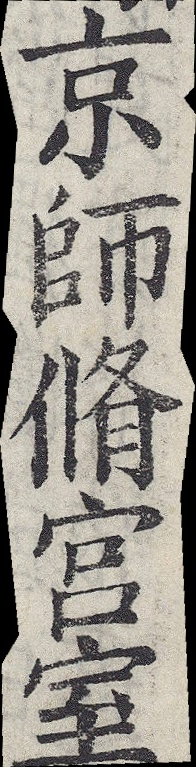京師脩宮室
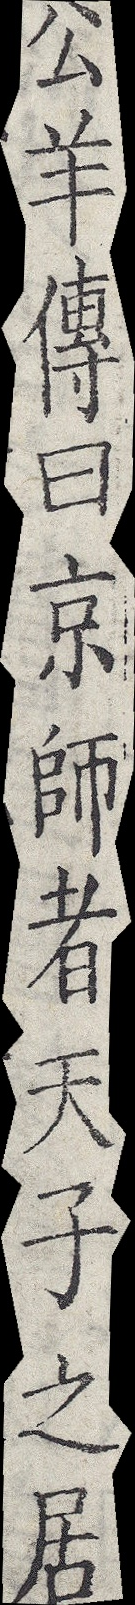公羊傳曰京師者天子之居
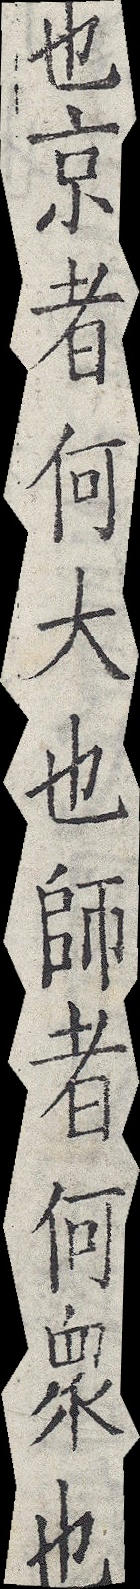也京者何大也師者何衆也
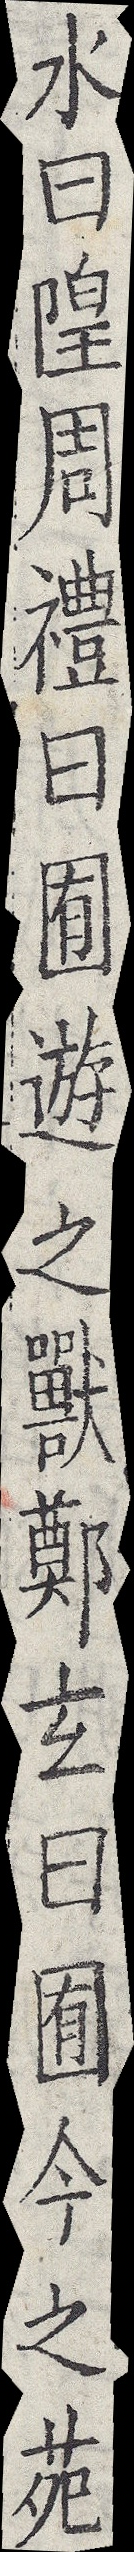水曰隍周禮曰囿遊之獸鄭玄曰囿今之苑
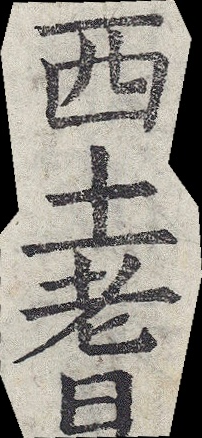西土耆
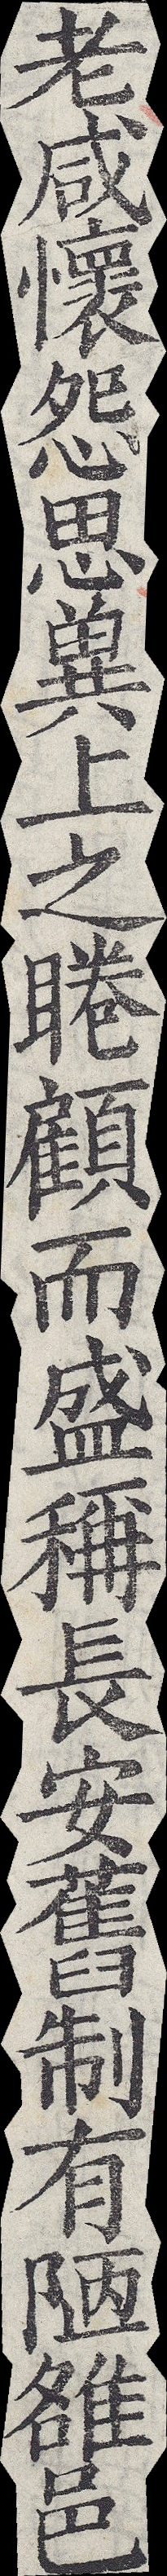老咸懷怨思冀上之睠顧而盛稱長安舊制有陋雒邑
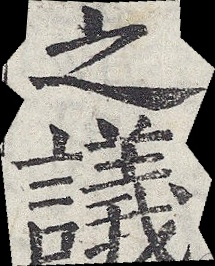之議
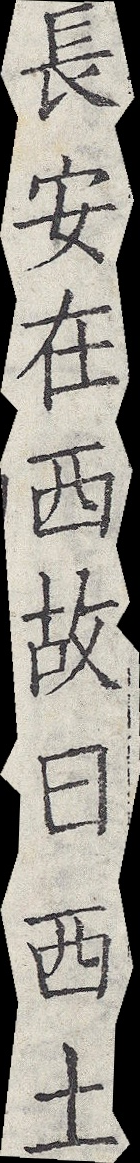長安在西故曰西土
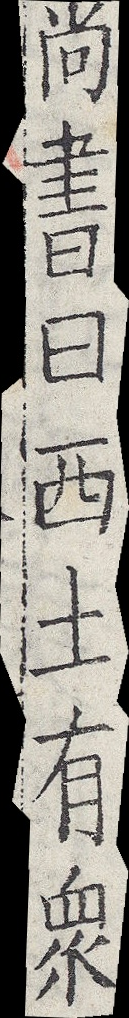尙書曰西土有衆
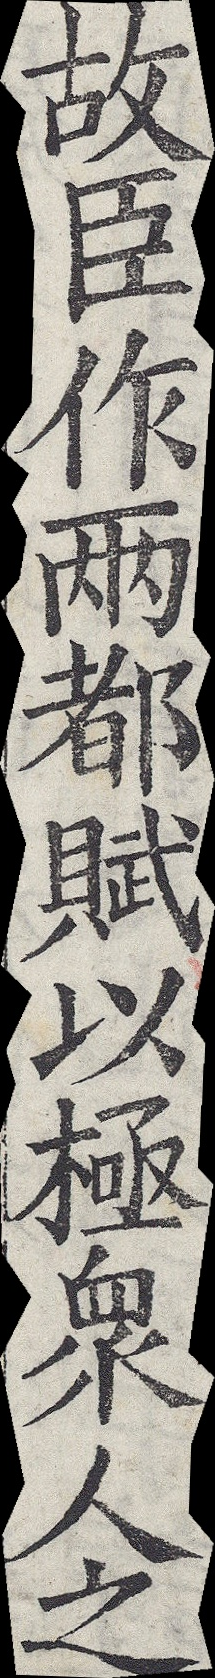故臣作兩都賦以極衆人之
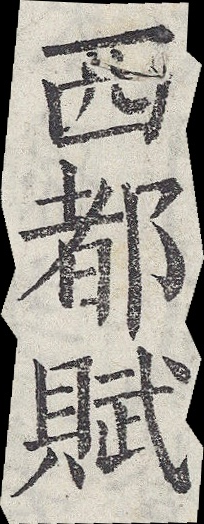西都賦
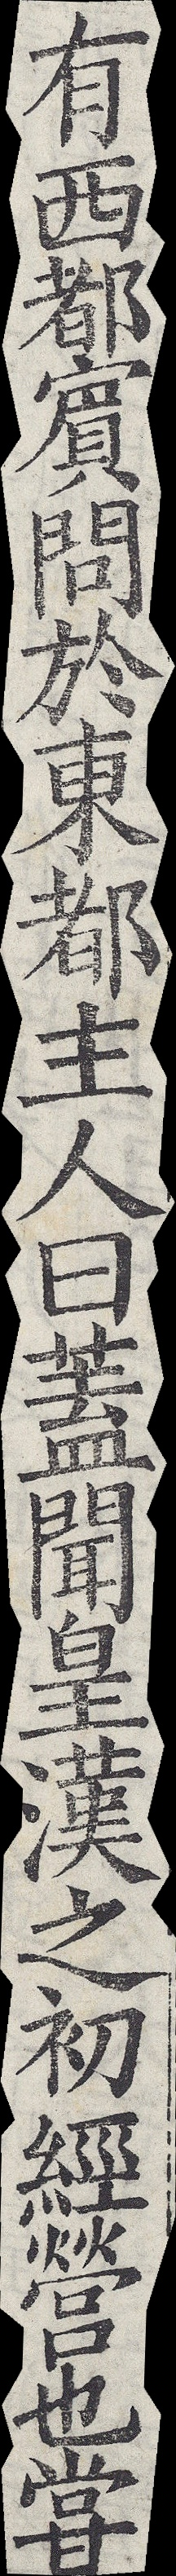有西都賓問於東都主人曰蓋聞皇漢之初經營也嘗
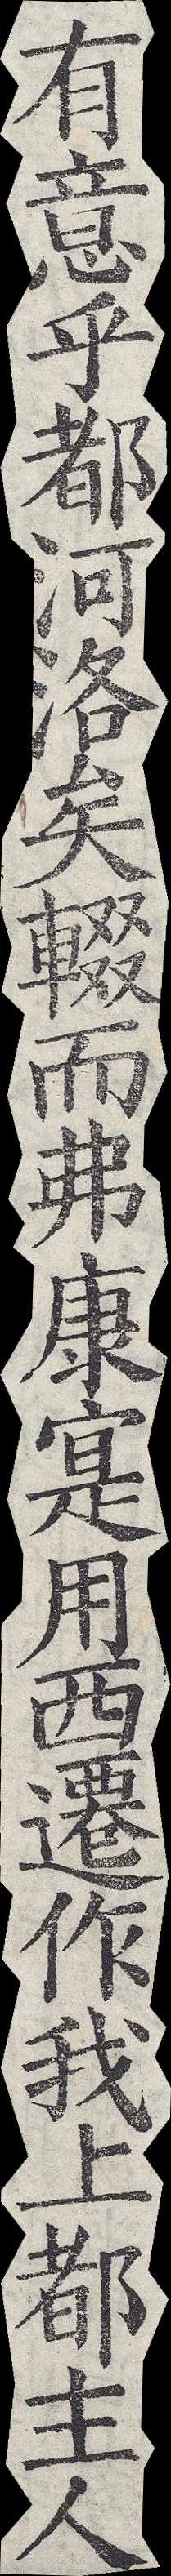有意乎都河洛矣輟而弗康寔用西遷作我上都主人
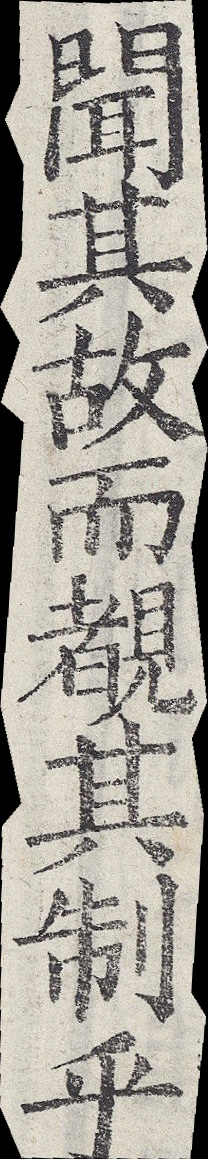聞其故而覩其制乎
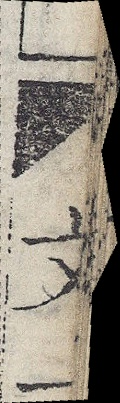文
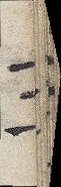三
